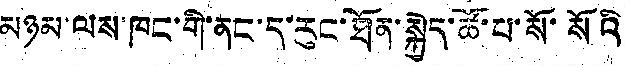མཉམ་ལས་ཁང་གི་ནང་ད་རུང་ཐོན་སྐྱེད་ཚོ་པ་སོ་སོའི
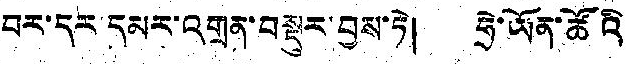བར་དར་དམར་འགྲན་བསྡུར་བྱས་ཏེ། ཧྲེ་ཡོན་ཚོའི
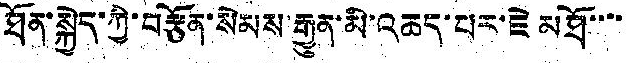ཐོན་སྐྱེད་ཀྱི་བརྩོན་སེམས་རྒྱུན་མི་འཆད་པར་ཇེ མཐོ་་་་
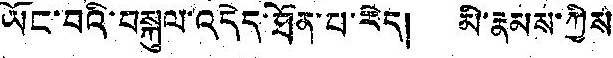ཡོང་བའི་བསྐུལ་འདེད་ཐོན་པ་རེད། མི་རྣམས་ཀྱིས་
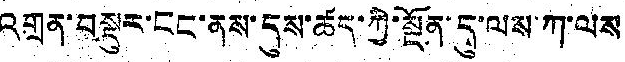འགྲན་བསྡུར་ངང་ནས་དུས་ཚད་ཀྱི་སྔོན་དུ་ལས་ཀ་ལས
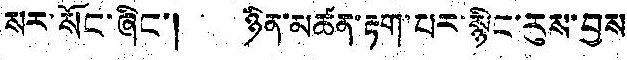སར་སོང་ཞིང་། ཉིན་མཚན་རྟག་པར་སྙིང་རུས་བྱས
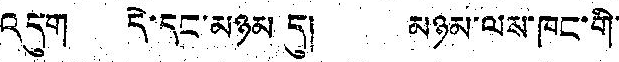འདུག དེ་དང་མཉམ དུ། མཉམ་ལས་ཁང་གི་
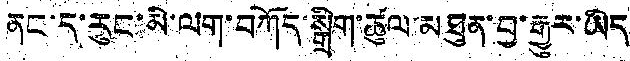ནང་ད་རུང་མི་ལག་བཀོད་སྒྲིག་ཚུལ་མཐུན་བྱ་རྒྱུར་ཡིད
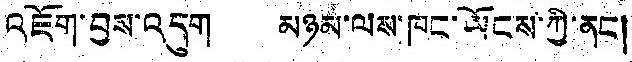འཇོག་བྱས་འདུག མཉམ་ལས་ཁང་ཡོངས་ཀྱི་ནང།
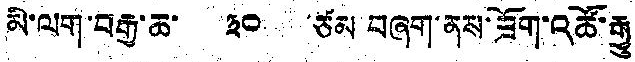མི་ལག་བརྒྱ་ཆ་ ༣༠ ཙམ བཞག་ནས་ཟོག་འཚོ་རྒྱུ
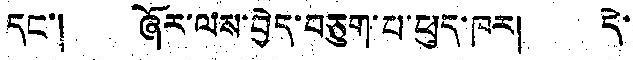དང་། ཞོར་ལས་བྱེད་བཅུག་པ་ཕུད་ཁར། དེ་
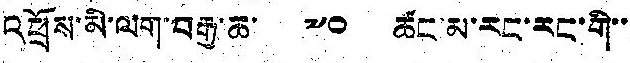འཕྲོས་མི་ལག་བརྒྱ་ཆ་ ༧༠ ཚང་མ་རང་རང་གི་་
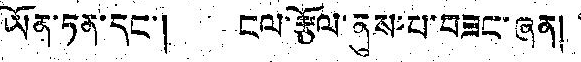ཡོན་ཏན་དང་། ངལ་རྩོལ་ནུས་པ་བཟང་ཞན།
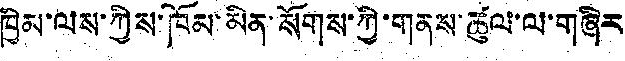ཁྱིམ་ལས་ཀྱིས་ཁོམ་མིན་སོགས་ཀྱི་གནས་ཚུལ་ལ་གཞིར
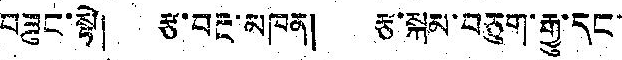བཟུང་སྟེ། རྩ་བརྔ་མཁན། རྩ་སྐམ་བཅུག་རྒྱུ་དང་
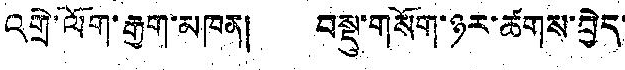འགྲེ་ལོག་རྒྱག་མཁན། བསྡུ་གསོག་ཉར་ཚགས་བྱེད་
